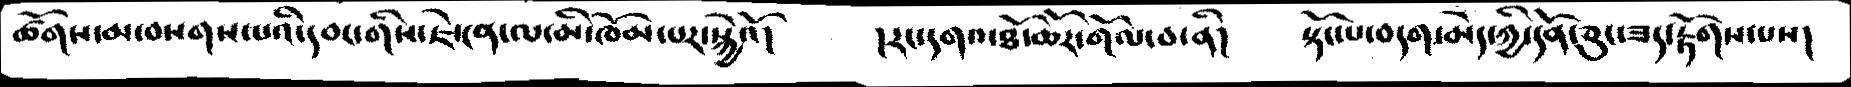ཚོགས་མ་བསགས་པའི་དབང་གིས་ཇེ་ངན་ལ་མི་ཁོམ་པར་སྐྱེའོ།    །རང་དགའ་ཐོ་ཆོར་གོལ་བ་ནི།    སྟོང་པ་བདག་མེད་ཀྱི་དོན་ཅུང་ཟད་རྟོགས་པས།
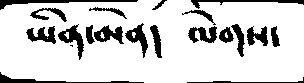ཡིན་མེན།    ལེགས་
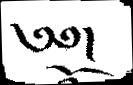༄༅།
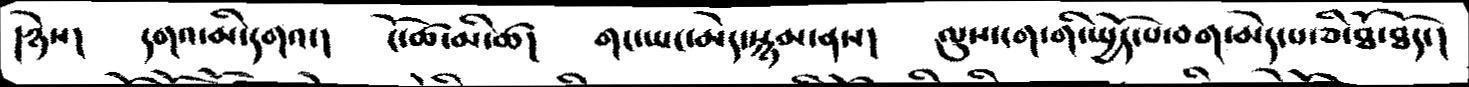།ཉེས།    དགའ་མི་དགའ་།    ངོ་ཚ་མི་ཚ།   གང་ཡང་མེད་སྙམ་ནས།     ལུས་ངག་གི་སྤྱོད་པ་བག་མེད་པ་ཅི་ཐོ་ཐོད་།
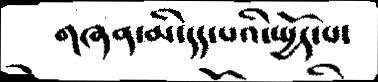གཞན་མི་དད་པའི་སྤྱོད་པ་
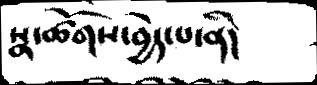སྣ་ཚོགས་བྱེད་པ་ནི།
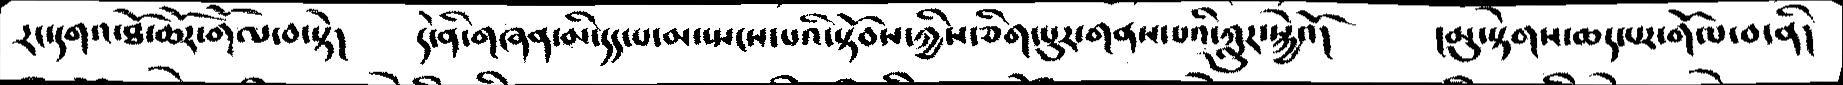རང་དགའ་ཐོ་ཆོར་གོལ་བ་སྟེ།   དེ་ནི་གཞན་མི་དད་པ་མ་སྤངས་པའི་སྟོབས་ཀྱིས་ཅིག་པུར་གནས་པའི་ཀླུར་སྐྱེའོ།   །མུ་སྟེགས་ཆད་པར་གོལ་བ་ནི།
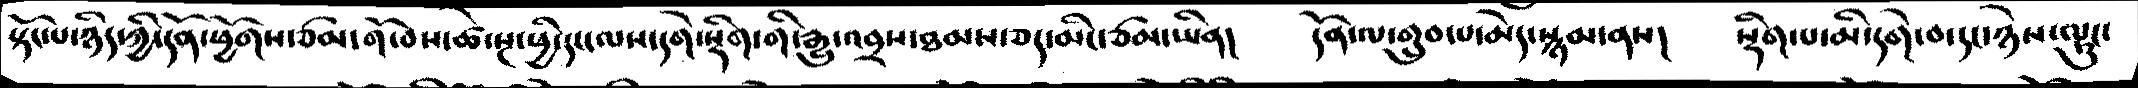སྟོང་པ་ཉིད་ཀྱི་དོན་ཕྱོགས་ཙམ་གོ་བས་ཚེ་སྔ་ཕྱི་དང་ལས་དགེ་སྡིག་གི་རྒྱུ་འབྲས་ཐམས་ཅད་མིང་ཙམ་ཡིན།   དོན་ལ་གྲུབ་པ་མེད་སྙམ་ནས།   སྡིག་པ་མི་དགེ་བ་དང་ཉེས་ལྟུང་
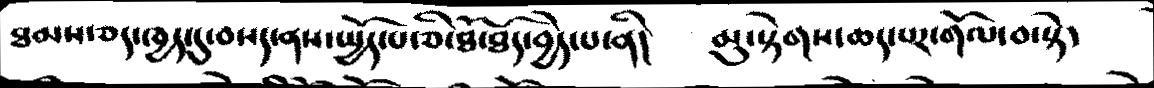ཐམས་ཅད་ཁྱད་དུ་བསད་ནས་སྤྱོད་པ་ཅི་ཐོ་ཐོད་བྱེད་པ་ནི།   མུ་སྟེགས་ཆད་པར་གོལ་བ་སྟེ།
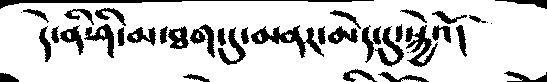དེ་ནི་ཤི་མ་ཐག་དུ་མནར་མེད་དུ་སྐྱེའོ།
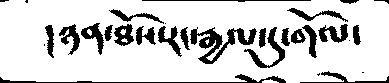།ཉན་ཐོས་རང་རྒྱལ་དུ་གོལ་
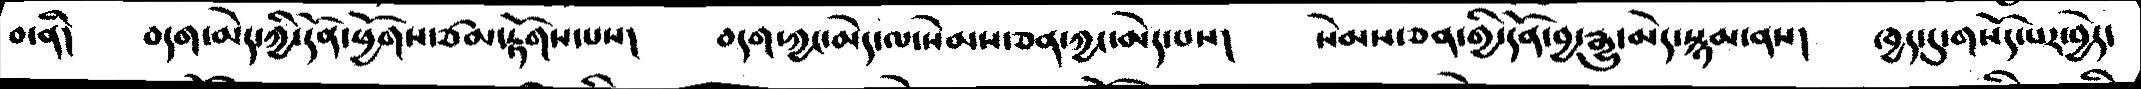བ་ནི།    བདག་མེད་ཀྱི་དོན་ཕྱོགས་ཙམ་རྟོགས་པས།   བདག་ཀྱང་མེད་ལ་སེམས་ཅན་ཀྱང་མེད་པས།   སེམས་ཅན་གྱི་དོན་བྱ་རྒྱུ་མེད་སྙམ་ནས།    ཁྱད་དུ་གསོད་པར་བྱེད་
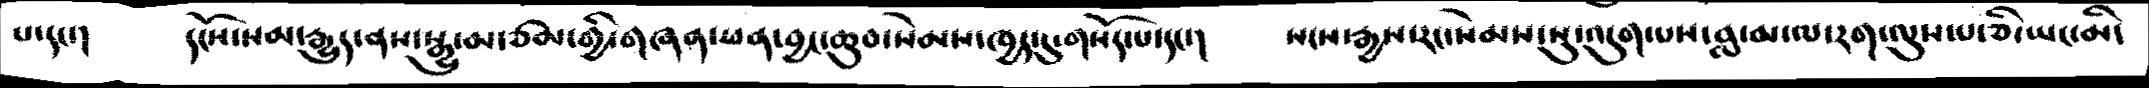པ་དང་།    དངོས་སམ་རྒྱུད་ནས་སྒྱུ་མ་ཙམ་གྱི་གཞན་ཕན་བྱང་ཆུབ་སེམས་ཁྱད་དུ་གསོད་པ་དང་།   སངས་རྒྱས་རང་སེམས་སུ་འདུག་པས་བླ་མ་ལ་རག་ལུས་པ་ཅི་ཡང་མི་
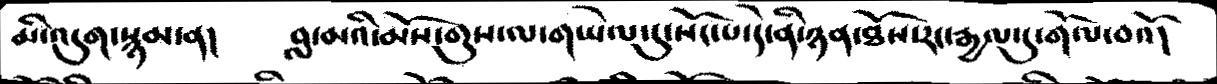མི་འདུག་སྙམ་ན།    བླ་མའི་མོས་གུས་ལ་གཡེལ་དུ་སོང་པ་དེ་ནི་ཉན་ཐོས་རང་རྒྱལ་དུ་གོལ་བའོ།
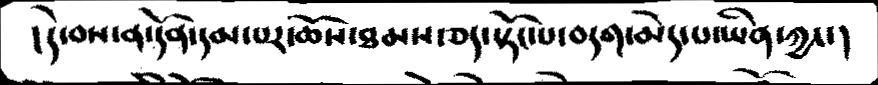།དེ་བས་ན་དོན་དམ་པར་ཆོས་ཐམས་ཅད་སྟོང་པ་བདག་མེད་པ་ཡིན་ཀྱང་།
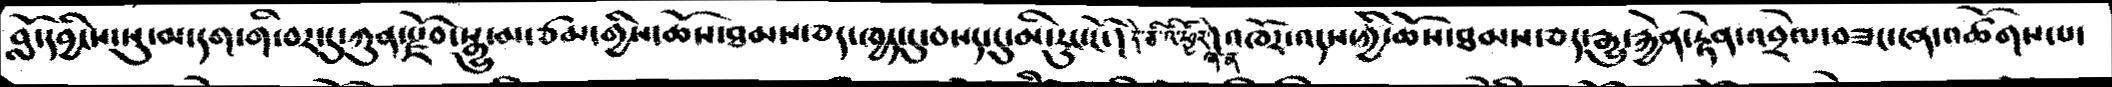བློ་དབྱིངས་སུ་མ་དག་གི་བར་དུ་ཀུན་རྫོབ་སྒྱུ་མ་ཙམ་གྱིས་ཆོས་ཐམས་ཅད་ཁྱད་དུ་བསད་དུ་མི་རུང་ངོ།དེ་ཅི་འི་ཕྱིར་ཞེ་ན་འཁོར་འདས་ཀྱི་ཆོས་ཐམས་ཅད་རྒྱུ་རྐྱེན་རྟེན་འབྲེལ་བཟང་ངན་འཚོགས་པ་
